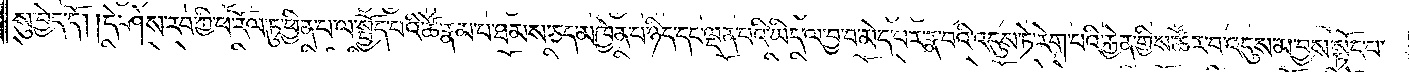སུ་བྱེད་དོ། །དེ་ཤེས་རབ་ཀྱི་ཕ་རོལ་ཏུ་ཕྱིན་པ་ལ་སྤྱོད་པའི་ཚེ་རྣམ་པ་ཐམས་ཅད་མཁྱེན་པ་ཉིད་དང་ལྡན་པའི་ཡིད་ལ་བྱ་བ་མེད་པར་རྣ་བའི་འདུས་ཏེ་རེག་པའི་རྐྱེན་གྱིས་ཚོར་བ་འདུས་མ་བྱས་སྟོང་པ་
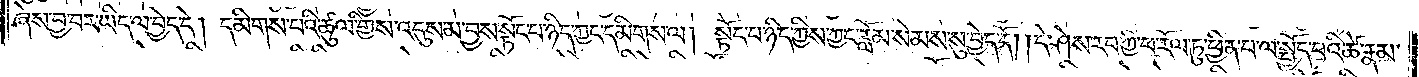ཞེས་བྱ་བར་ཡིད་ལ་བྱེད་དེ། དམིགས་པའི་ཚུལ་གྱིས་འདུས་མ་བྱས་སྟོང་པ་ཉིད་ཀྱང་དམིགས་ལ། སྟོང་པ་ཉིད་ཀྱིས་ཀྱང་རློམ་སེམས་སུ་བྱེད་དོ། །དེ་ཤེས་རབ་ཀྱི་ཕ་རོལ་ཏུ་ཕྱིན་པ་ལ་སྤྱོད་པའི་ཚེ་རྣམ་
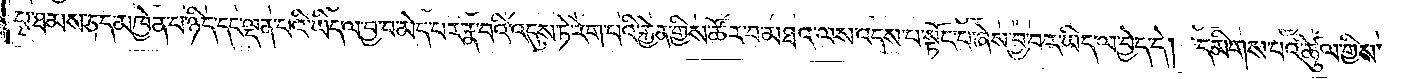པ་ཐམས་ཅད་མཁྱེན་པ་ཉིད་དང་ལྡན་པའི་ཡིད་ལ་བྱ་བ་མེད་པར་རྣ་བའི་འདུས་ཏེ་རེག་པའི་རྐྱེན་གྱིས་ཚོར་བ་མཐའ་ལས་འདས་པ་སྟོང་པ་ཞེས་བྱ་བར་ཡིད་ལ་བྱེད་དོ། དམིགས་པའི་ཚུལ་གྱིས་
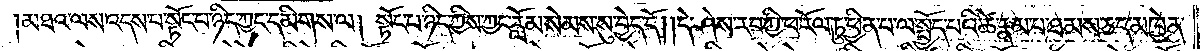མཐའ་ལས་འདས་པ་སྟོང་པ་ཉིད་ཀྱང་དམིགས་ལ། སྟོང་པ་ཉིད་ཀྱིས་ཀྱང་རློམ་སེམས་སུ་བྱེད་དོ། །དེ་ཤེས་རབ་ཀྱི་ཕ་རོལ་ཏུ་ཕྱིན་པ་ལ་སྤྱོད་པའི་ཚེ་རྣམ་པ་ཐམས་ཅད་མཁྱེན་
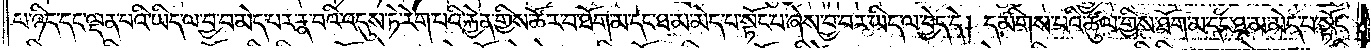པ་ཉིད་དང་ལྡན་པའི་ཡིད་ལ་བྱ་བ་མེད་པར་རྣ་བའི་འདུས་ཏེ་རེག་པའི་རྐྱེན་གྱིས་ཚོར་བ་ཐོག་མ་དང་ཐ་མ་མེད་པ་སྟོང་པ་ཞེས་བྱ་བར་ཡིད་ལ་བྱེད་དེ། དམིགས་པའི་ཚུལ་གྱིས་ཐོག་མ་དང་ཐ་མ་མེད་པ་སྟོང་
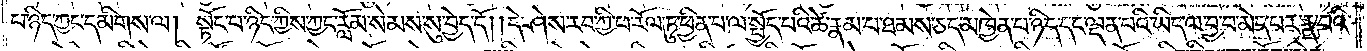པ་ཉིད་ཀྱང་དམིགས་ལ། སྟོང་པ་ཉིད་ཀྱིས་ཀྱང་རློམ་སེམས་སུ་བྱེད་དོ། །དེ་ཤེས་རབ་ཀྱི་ཕ་རོལ་ཏུ་ཕྱིན་པ་ལ་སྤྱོད་པའི་ཚེ་རྣམ་པ་ཐམས་ཅད་མཁྱེན་པ་ཉིད་དང་ལྡན་པའི་ཡིད་ལ་བྱ་བ་མེད་པར་རྣ་བའི་
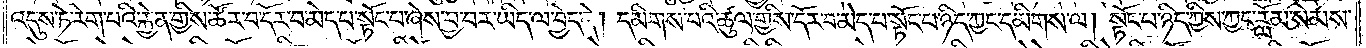འདུས་ཏེ་རེག་པའི་རྐྱེན་གྱིས་ཚོར་བ་དོར་བ་མེད་པ་སྟོང་པ་ཞེས་བྱ་བར་ཡིད་ལ་བྱེད་དེ། དམིགས་པའི་ཚུལ་གྱིས་དོར་བ་མེད་པ་སྟོང་པ་ཉིད་ཀྱང་དམིགས་ལ། སྟོང་པ་ཉིད་ཀྱིས་ཀྱང་རློམ་སེམས་
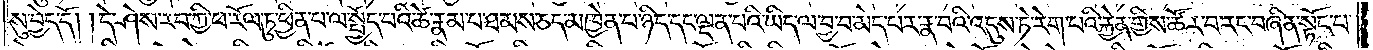སུ་བྱེད་དོ། །དེ་ཤེས་རབ་ཀྱི་ཕ་རོལ་ཏུ་ཕྱིན་པ་ལ་སྤྱོད་པའི་ཚེ་རྣམ་པ་ཐམས་ཅད་མཁྱེན་པ་ཉིད་དང་ལྡན་པའི་ཡིད་ལ་བྱ་བ་མེད་པར་རྣ་བའི་འདུས་ཏེ་རེག་པའི་རྐྱེན་གྱིས་ཚོར་བ་རང་བཞིན་སྟོང་པ་
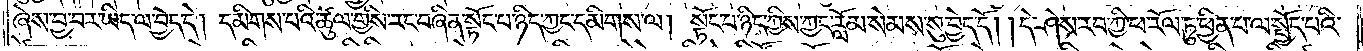ཞེས་བྱ་བར་ཡིད་ལ་བྱེད་དེ། དམིགས་པའི་ཚུལ་གྱིས་རང་བཞིན་སྟོང་པ་ཉིད་ཀྱང་དམིགས་ལ། སྟོང་པ་ཉིད་ཀྱིས་ཀྱང་རློམ་སེམས་སུ་བྱེད་དོ། །དེ་ཤེས་རབ་ཀྱི་ཕ་རོལ་ཏུ་ཕྱིན་པ་ལ་སྤྱོད་པའི་
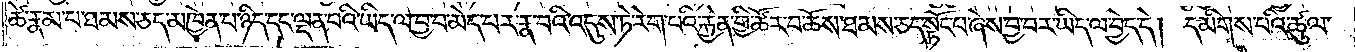ཚེ་རྣམ་པ་ཐམས་ཅད་མཁྱེན་པ་ཉིད་དང་ལྡན་པའི་ཡིད་ལ་བྱ་བ་མེད་པར་རྣ་བའི་འདུས་ཏེ་རེག་པའི་རྐྱེན་གྱིས་ཚོར་བ་ཆོས་ཐམས་ཅད་སྟོང་པ་ཞེས་བྱ་བར་ཡིད་ལ་བྱེད་དེ། དམིགས་པའི་ཚུལ་
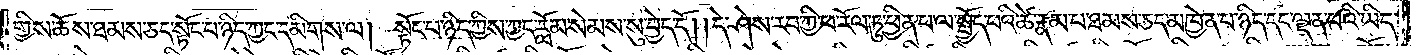གྱིས་ཆོས་ཐམས་ཅད་སྟོང་པ་ཉིད་ཀྱང་དམིགས་ལ། སྟོང་པ་ཉིད་ཀྱིས་ཀྱང་རློམ་སེམས་སུ་བྱེད་དོ། །དེ་ཤེས་རབ་ཀྱི་ཕ་རོལ་ཏུ་ཕྱིན་པ་ལ་སྤྱོད་པའི་ཚེ་རྣམ་པ་ཐམས་ཅད་མཁྱེན་པ་ཉིད་དང་ལྡན་པའི་ཡིད་
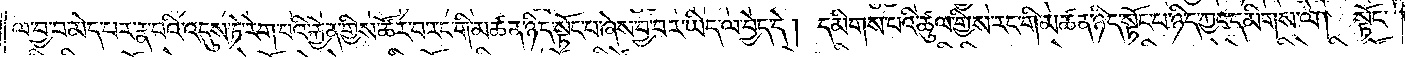ལ་བྱ་བ་མེད་པར་རྣ་བའི་འདུས་ཏེ་རེག་པའི་རྐྱེན་གྱིས་ཚོར་བ་རང་གི་མཚན་ཉིད་སྟོང་པ་ཞེས་བྱ་བར་ཡིད་ལ་བྱེད་དེ། དམིགས་པའི་ཚུལ་གྱིས་རང་གི་མཚན་ཉིད་སྟོང་པ་ཉིད་ཀྱང་དམིགས་ལ། སྟོང་
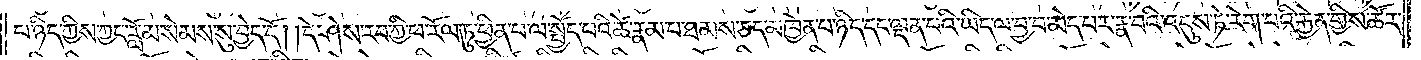པ་ཉིད་ཀྱིས་ཀྱང་རློམ་སེམས་སུ་བྱེད་དོ། །དེ་ཤེས་རབ་ཀྱི་ཕ་རོལ་ཏུ་ཕྱིན་པ་ལ་སྤྱོད་པའི་ཚེ་རྣམ་པ་ཐམས་ཅད་མཁྱེན་པ་ཉིད་དང་ལྡན་པའི་ཡིད་ལ་བྱ་བ་མེད་པར་རྣ་བའི་འདུས་ཏེ་རེག་པའི་རྐྱེན་གྱིས་ཚོར་
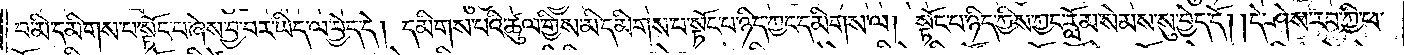བ་མི་དམིགས་པ་སྟོང་པ་ཞེས་བྱ་བར་ཡིད་ལ་བྱེད་དེ། དམིགས་པའི་ཚུལ་གྱིས་མི་དམིགས་པ་སྟོང་པ་ཉིད་ཀྱང་དམིགས་ལ། སྟོང་པ་ཉིད་ཀྱིས་ཀྱང་རློམ་སེམས་སུ་བྱེད་དོ། །དེ་ཤེས་རབ་ཀྱི་ཕ་
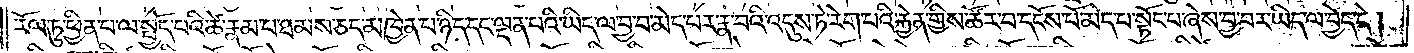རོལ་ཏུ་ཕྱིན་པ་ལ་སྤྱོད་པའི་ཚེ་རྣམ་པ་ཐམས་ཅད་མཁྱེན་པ་ཉིད་དང་ལྡན་པའི་ཡིད་ལ་བྱ་བ་མེད་པར་རྣ་བའི་འདུས་ཏེ་རེག་པའི་རྐྱེན་གྱིས་ཚོར་བ་དངོས་པོ་མེད་པ་སྟོང་པ་ཞེས་བྱ་བར་ཡིད་ལ་བྱེད་དེ།
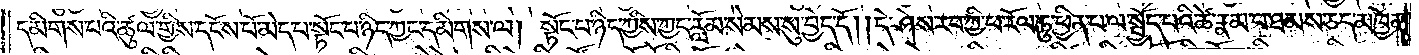དམིགས་པའི་ཚུལ་གྱིས་དངོས་པོ་མེད་པ་སྟོང་པ་ཉིད་ཀྱང་དམིགས་ལ། སྟོང་པ་ཉིད་ཀྱིས་ཀྱང་རློམ་སེམས་སུ་བྱེད་དོ། །དེ་ཤེས་རབ་ཀྱི་ཕ་རོལ་ཏུ་ཕྱིན་པ་ལ་སྤྱོད་པའི་ཚེ་རྣམ་པ་ཐམས་ཅད་མཁྱེན་
